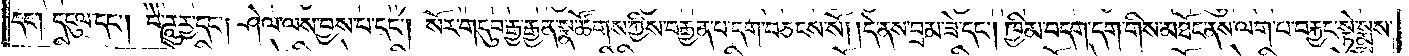དང༌། དངུལ་དང༌། བཻ་ཌཱུཪྻ་དང༌། ཤེལ་ལས་བྱས་པ་དང༌། སོར་གདུབ་རྒྱ་རྒྱན་སྣ་ཚོགས་ཀྱིས་བརྒྱན་པ་དག་བཅངས་སོ། །དེ་ནས་བྲམ་ཟེ་དང༌། ཁྱིམ་བདག་དག་གིས་མཐོང་ནས་ལག་པ་བརྐྱང་སྟེ་སྨྲས་
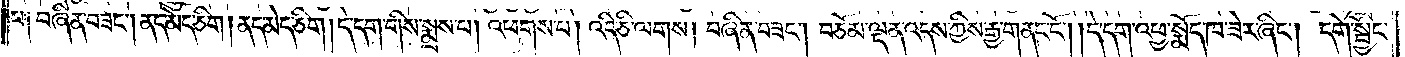པ། བཞིན་བཟང༌། ནད་མེད་ཅིག །ནད་མེད་ཅིག །དེ་དག་གིས་སྨྲས་པ། འཕགས་པ། འདི་ཅི་ལགས། བཞིན་བཟང༌། བཅོམ་ལྡན་འདས་ཀྱིས་རྒྱ་གནང་ངོ༌། །དེ་དག་འཕྱ་སྨོད་ཁ་ཟེར་ཞིང༌། དགེ་སྦྱོང་
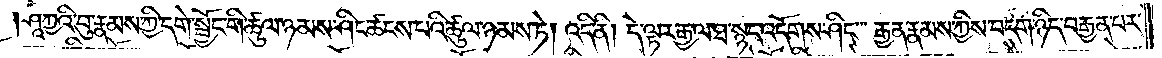།ཤཱཀྱའི་བུ་རྣམས་ཀྱི་དགེ་སྦྱོང་གི་ཚུལ་ཉམས་ཤིང་ཚངས་པའི་ཚུལ་ཉམས་ཏེ། འདི་ནི། དེ་ལྟར་རྒྱ་ལ་ཐ་སྙད་འདོགས་ཤིང༌། རྒྱན་རྣམས་ཀྱིས་བདག་ཉིད་བརྒྱན་པར་
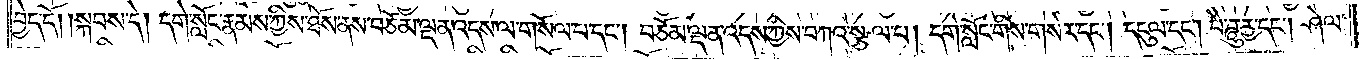བྱེད་དོ། །སྐབས་དེ། དགེ་སློང་རྣམས་ཀྱིས་ཐོས་ནས་བཅོམ་ལྡན་འདས་ལ་གསོལ་པ་དང༌། བཅོམ་ལྡན་འདས་ཀྱིས་བཀའ་སྩལ་པ། དགེ་སློང་གིས་གསེར་དང༌། དངུལ་དང༌། བཻ་ཌཱུཪྻ་དང༌། ཤེལ་
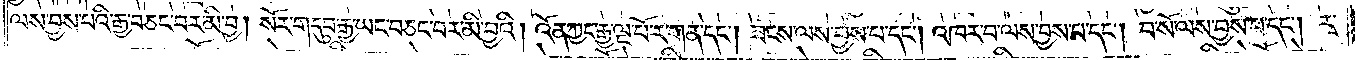ལས་བྱས་པའི་རྒྱ་བཅང་བར་མི་བྱ། སོར་གདུབ་རྒྱ་ཡང་བཅང་བར་མི་བྱའི། འོན་ཀྱང་རྒྱ་ལྔ་པོ་ར་གན་དང༌། ཟངས་ལས་བྱས་པ་དང༌། འཁར་བ་ལས་བྱས་པ་དང༌། བ་སོ་ལས་བྱས་པ་དང༌། རྭ་
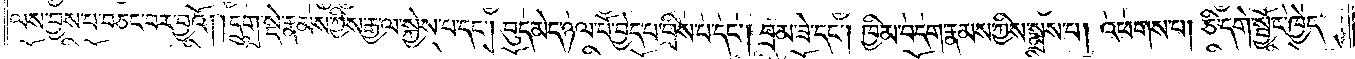ལས་བྱས་པ་བཅང་བར་བྱའོ། །དྲུག་སྡེ་རྣམས་ཀྱིས་རྒྱ་ལ་སྐྱེས་པ་དང༌། བུད་མེད་ཉལ་པོ་བྱེད་པ་བྲིས་པ་དང༌། བྲམ་ཟེ་དང༌། ཁྱིམ་བདག་རྣམས་ཀྱིས་སྨྲས་པ། འཕགས་པ། ཅི་དགེ་སྦྱོང་ཁྱེད་
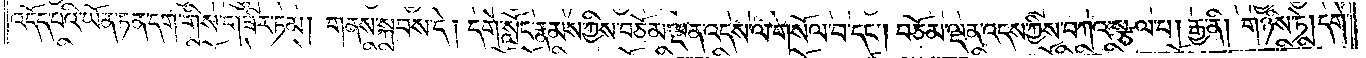འདོད་པའི་ཡོན་ཏན་དག་གིས་གཟིར་ཏམ། གནས་སྐབས་དེ། དགེ་སློང་རྣམས་ཀྱིས་བཅོམ་ལྡན་འདས་ལ་གསོལ་པ་དང༌། བཅོམ་ལྡན་འདས་ཀྱིས་བཀའ་སྩལ་པ། རྒྱ་ནི། གཉིས་ཏེ། དགེ་
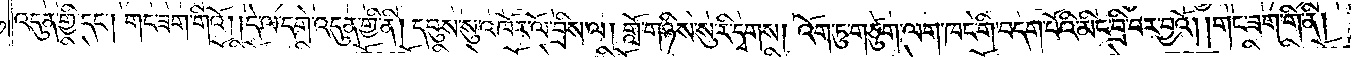འདུན་གྱི་དང༌། གང་ཟག་གིའོ། །དེ་ལ་དགེ་འདུན་གྱི་ནི། དབུས་སུ་འཁོར་ལོ་བྲིས་ལ། གློ་གཉིས་སུ་རི་དྭགས། འོག་ཏུ་གཙུག་ལག་ཁང་གི་བདག་པོའི་མིང་བྲི་བར་བྱའོ། །གང་ཟག་གི་ནི།
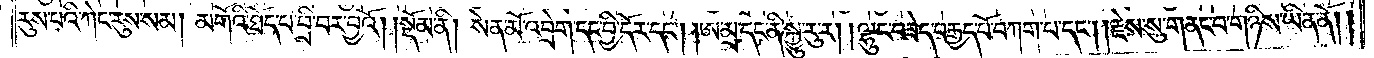རུས་པའི་ཀེང་རུས་སམ། མགོའི་ཐོད་པ་བྲི་བར་བྱའོ།    །སྡོམ་ནི། སེན་མོ་འབྲེག་དང་བྱི་དོར་དང༌། །ཨ་མྲ་དང་ནི་སྐྱུ་རུ་ར། །ལྷུང་བཟེད་བརྒྱད་པོ་བཀག་པ་དང༌། །རྗེས་སུ་གནང་བ་གཉིས་ཡིན་ནོ། །
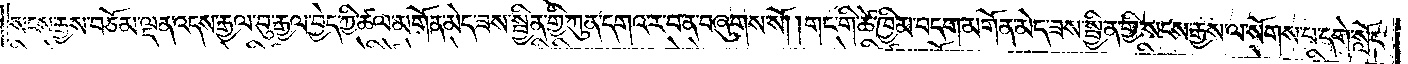སངས་རྒྱས་བཅོམ་ལྡན་འདས་རྒྱལ་བུ་རྒྱལ་བྱེད་ཀྱི་ཚལ་མགོན་མེད་ཟས་སྦྱིན་གྱི་ཀུན་དགའ་ར་བ་ན་བཞུགས་སོ། །གང་གི་ཚེ་ཁྱིམ་བདག་མགོན་མེད་ཟས་སྦྱིན་གྱི་སངས་རྒྱས་ལ་སོགས་པ་དགེ་སློང་
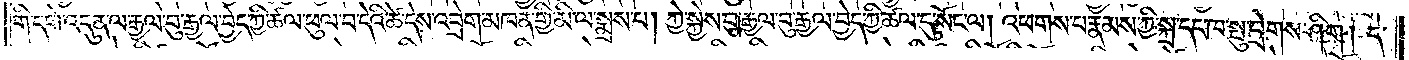གི་དགེ་འདུན་ལ་རྒྱལ་བུ་རྒྱལ་བྱེད་ཀྱི་ཚལ་ཕུལ་བ་དེའི་ཚེ་དེས་འབྲེག་མཁན་གྱི་མི་ལ་སྨྲས་པ། ཀྱེ་སྐྱེས་བུ་རྒྱལ་བུ་རྒྱལ་བྱེད་ཀྱི་ཚལ་དུ་སོང་ལ། འཕགས་པ་རྣམས་ཀྱི་སྐྲ་དང་ཁ་སྤུ་བྲེགས་ཤིག །དེ་
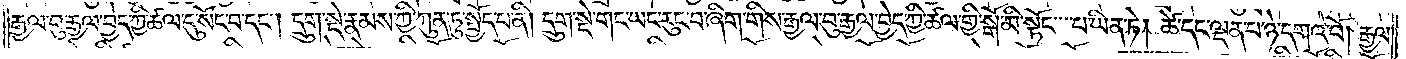རྒྱལ་བུ་རྒྱལ་བྱེད་ཀྱི་ཚལ་དུ་སོང་བ་དང༌། དྲུག་སྡེ་རྣམས་ཀྱི་ཀུན་ཏུ་སྤྱོད་པ་ནི། དྲུག་སྡེ་གང་ཡང་རུང་བ་ཞིག་གིས་རྒྱལ་བུ་རྒྱལ་བྱེད་ཀྱི་ཚལ་གྱི་སྒོ་མི་སྟོང་པ་ཡིན་ཏེ། ཚེ་དང་ལྡན་པ་ཉེ་དགའ་བོ། རྒྱལ་
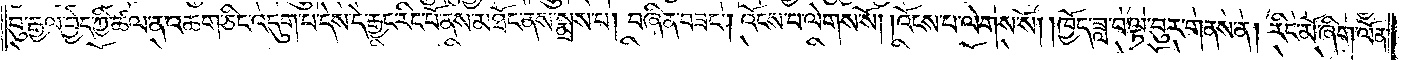བུ་རྒྱལ་བྱེད་ཀྱི་ཚལ་ན་འཆག་ཅིང་འདུག་པ་དེས་དེ་རྒྱང་རིང་པོ་ནས་མཐོང་ནས་སྨྲས་པ། བཞིན་བཟང༌། འོངས་པ་ལེགས་སོ། །འོངས་པ་ལེགས་སོ། །ཁྱོད་ཟླ་བ་ལྟ་བུར་གནས་ན། རིང་མོ་ཞིག་ལོན་
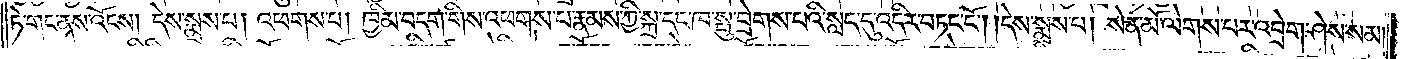ཏེ་གང་ནས་འོངས། དེས་སྨྲས་པ། འཕགས་པ། ཁྱིམ་བདག་གིས་འཕགས་པ་རྣམས་ཀྱི་སྐྲ་དང་ཁ་སྤུ་བྲེགས་པའི་སླད་དུ་འདིར་བཏང་ངོ༌། །དེས་སྨྲས་པ། སེན་མོ་ལེགས་པར་འབྲེག་ཤེས་སམ།
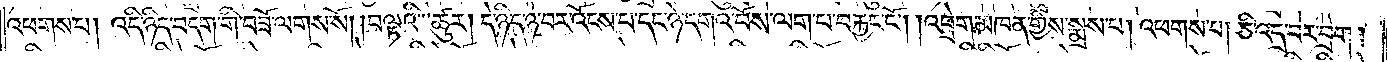འཕགས་པ། འདི་ཉིད་བདག་གི་བཟོ་ལགས་སོ། །བལྟའི་ཚུར། དེ་ཉིད་ཉེ་བར་འོངས་པ་དང་ཉེ་དགའ་བོས་ལག་པ་བརྐྱང་ངོ༌། །འབྲེག་མཁན་གྱིས་སྨྲས་པ། འཕགས་པ། ཅི་འདྲ་བར་བྲེག །
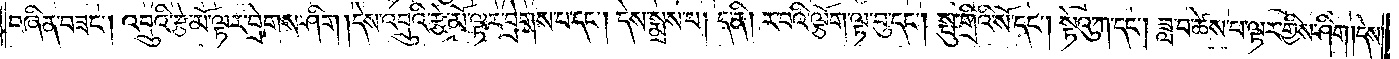བཞིན་བཟང༌། འབྲུའི་རྩེ་མོ་ལྟར་བྲེགས་ཤིག །དེས་འབྲུའི་རྩེ་མོ་ལྟར་བྲེགས་པ་དང༌། དེས་སྨྲས་པ། ད་ནི། ར་བའི་ལྕོག་ལྟ་བུ་དང༌། སྤུ་གྲིའི་སོ་དང༌། སྟེའུ་ཀ་དང༌། ཟླ་བ་ཆེས་པ་ལྟར་གྱིས་ཤིག །དེས་
